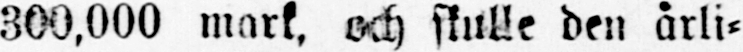300,000 mark, och skulle den årli-
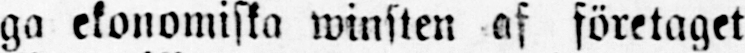ga ekonomiska winsten af företaget
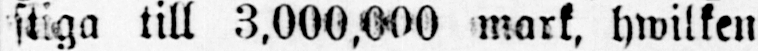stiga till 3,000,000 mark, hwilken
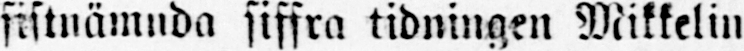sistnämnda siffra tidningen Mikkelin
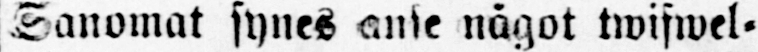Sanomat fynes anse något twifwel-
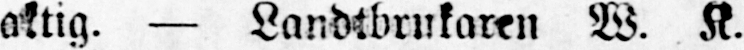aktig. — Landtbrukaren W. K.
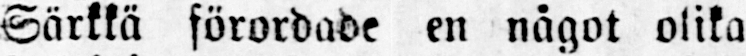Särkkä förordade en någat olika
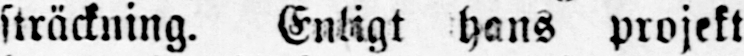sträckning. Enligt hans projekt
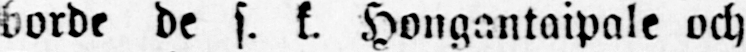borde de s. k. Hongantaipale och
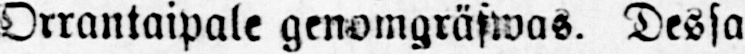Orrantaipale genomgräfwas. Dessa
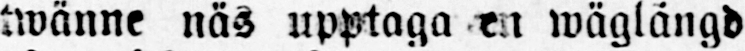twänne näs upptaga en wäglängd
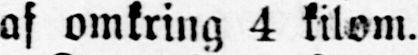af omkring 4 kilom.
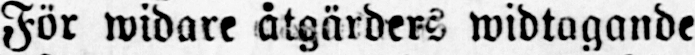För widare åtgärders widtagande
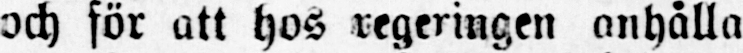och för att hos regeringen anhålla
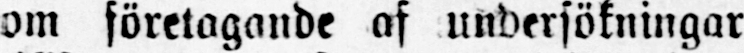om företagande af undersökningar
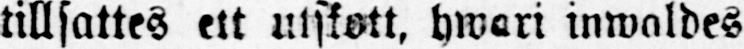tillsattes ett utskott, hwari inwaldes
